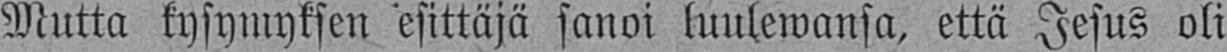Mutta kysymyksen esittäjä sanoi luulewansa, että Jesus oli
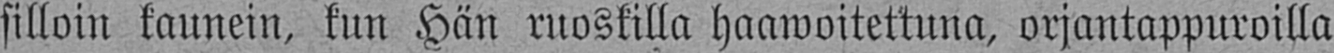silloin kaunein, kun Hän ruoskilla haawoitettuna, orjantappuroilla
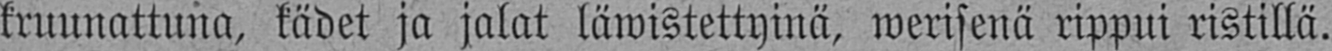kruunattuna, kädet ja jalat läwistettyinä, werisenä rippui ristillä.
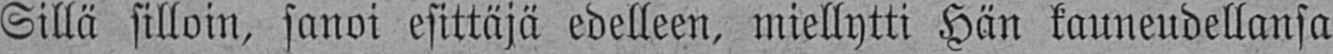Sillä silloin, sanoi esittäjä edelleen, miellytti Hän kauneudellansa
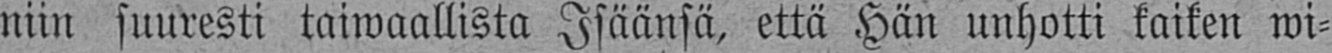niin suuresti taiwaallista Isäänsä, että Hän unhotti kaiken wi-
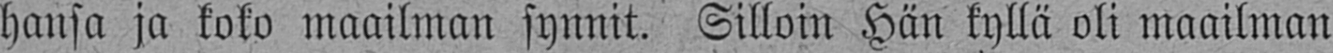hansa ja koko maailman synnit. Silloin Hän kyllä oli maailman
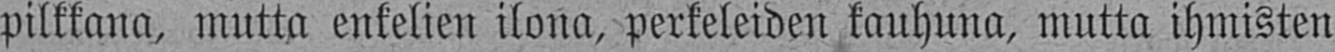pilkkana, mutta enkelien ilona, perkeleiden kauhuna, mutta ihmisten
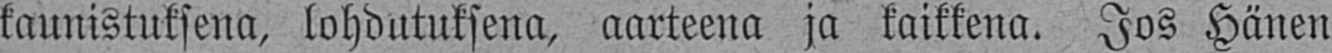kaunistuksena, lohdutuksena, aarteena ja kaikkena. Jos Hänen
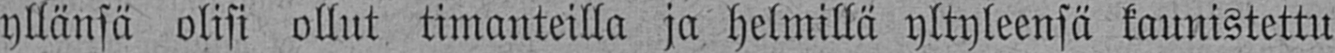yllänsä olisi ollut timanteilla ja helmillä yltyleensä kaunistettu
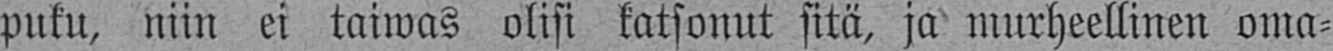puku, niin ei taiwas olisi katsonut sitä, ja murheellinen oma-
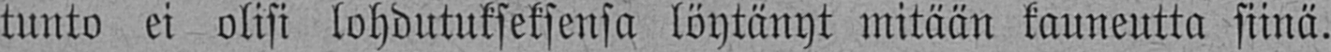tunto ei olisi lohdutukseksensa löytänyt mitään kauneutta siinä.
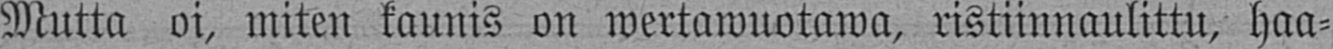Mutta oi, miten kaunis on wertawuotawa, ristiinnaulittu, haa-
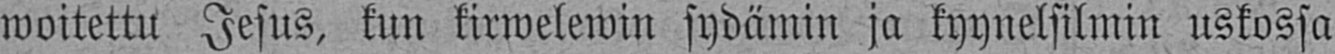woitettu Jesus, kun kirwelewin sydämin ja kyynelsilmin uskossa
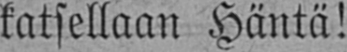katsellaan Häntä!
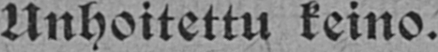Unhoitettu keino.
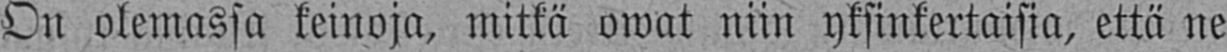On olemassa keinoja, mitkä owat niin yksinkertaisia, että ne
